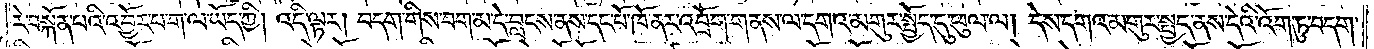རེ་བསྐོན་པའི་འབྱོར་པ་ག་ལ་ཡོད་ཀྱི། འདི་ལྟར། བདག་གིས་བག་མ་དེ་བླངས་ནས་དང་པོ་ཁོ་ནར་འབྲོག་གནས་ལ་དགའ་མགུར་སྤྱོད་དུ་ཕུལ་ལ། དེས་དགའ་མགུར་སྤྱད་ནས་དེའི་འོག་ཏུ་བདག་
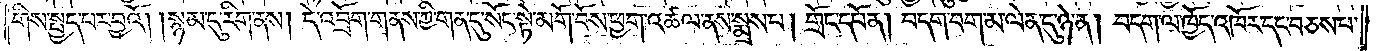གིས་སྤྱད་པར་བྱའོ། །སྙམ་དུ་རིག་ནས། དེ་འབྲོག་གནས་ཀྱི་གན་དུ་སོང་སྟེ་མགོ་བོས་ཕྱག་འཚལ་ནས་སྨྲས་པ། གྲོང་དཔོན། བདག་བག་མ་ལེན་དུ་ཉེ་ན། བདག་ལ་ཁྱོད་འཁོར་དང་བཅས་པ་
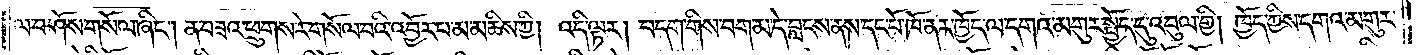ལ་བཤོས་གསོལ་ཞིང༌། ན་བཟའ་ཕྲུགས་རེ་གསོལ་བའི་འབྱོར་པ་མ་མཆིས་ཀྱི། འདི་ལྟར། བདག་གིས་བག་མ་དེ་བླངས་ནས་དང་པོ་ཁོ་ནར་ཁྱོད་ལ་དགའ་མགུར་སྤྱོད་དུ་འབུལ་གྱི། ཁྱོད་ཀྱིས་དགའ་མགུར་
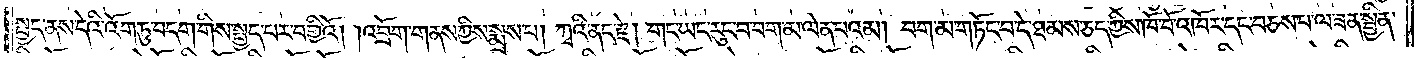སྤྱད་ནས་དེའི་འོག་ཏུ་བདག་གིས་སྤྱད་པར་བགྱིའོ། །འབྲོག་གནས་ཀྱིས་སྨྲས་པ། ཀྭའི་ནང་རྗེ། གང་ཡང་རུང་བ་བག་མ་ལེན་པའམ། བག་མ་གཏོང་བ་དེ་ཐམས་ཅད་ཀྱིས་ཁོ་བོ་འཁོར་དང་བཅས་པ་ལ་ཟན་སྦྱིན་
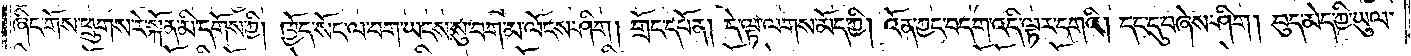ཞིང་གོས་ཕྲུགས་རེ་སྐོན་མི་དགོས་ཀྱི། ཁྱོད་སོང་ལ་བག་ཡངས་སུ་བག་མ་ལོངས་ཤིག། གྲོང་དཔོན། དེ་ལྟ་ལགས་མོད་ཀྱི། འོན་ཀྱང་བདག་འདི་ལྟར་དགའི། དང་དུ་བཞེས་ཤིག །བུད་མེད་ཀྱི་ཡུལ་
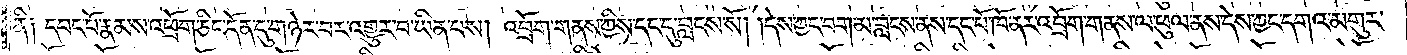ནི༑ དབང་པོ་རྣམས་འཕྲོག་ཅིང་དོན་དུ་གཉེར་བར་འགྱུར་བ་ཡིན་པས། འབྲོག་གནས་ཀྱིས་དང་དུ་བླངས་སོ། །དེས་ཀྱང་བག་མ་བླངས་ནས་དང་པོ་ཁོ་ནར་འབྲོག་གནས་ལ་ཕུལ་ནས་དེས་ཀྱང་དགའ་མགུར་
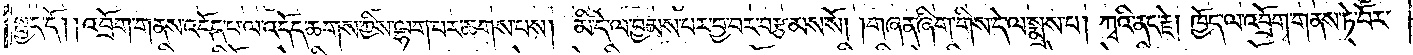སྤྱད་དོ། །འབྲོག་གནས་འདོད་པ་ལ་འདོད་ཆགས་ཀྱིས་ལྷག་པར་ཆགས་པས། མི་དེ་ལ་བྱམས་པར་བྱ་བར་བརྩམས་སོ། །གཞན་ཞིག་གིས་དེ་ལ་སྨྲས་པ། ཀྭའི་ནང་རྗེ། ཁྱོད་ལ་འབྲོག་གནས་ཏེ་བོར་
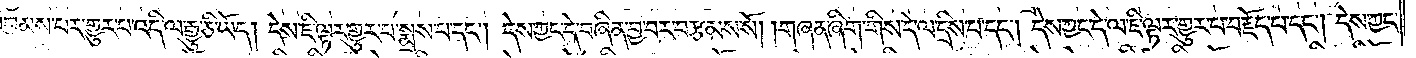བྱམས་པར་གྱུར་པ་འདི་ལ་རྒྱུ་ཅི་ཡོད། དེས་ཇི་ལྟར་གྱུར་པ་སྨྲས་པ་དང༌། དེས་ཀྱང་དེ་བཞིན་བྱ་བར་བརྩམས་སོ། །གཞན་ཞིག་གིས་དེ་ལ་དྲིས་པ་དང༌། དེས་ཀྱང་དེ་ལ་ཇི་ལྟར་གྱུར་པ་བརྗོད་པ་དང༌། དེས་ཀྱང་
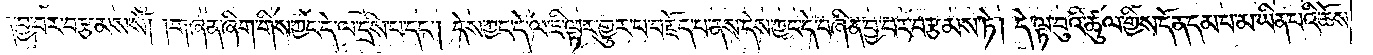དེ་བཞིན་བྱ་བར་བརྩམས་སོ། །གཞན་ཞིག་གིས་ཀྱང་དེ་ལ་དྲིས་པ་དང༌། དེས་ཀྱང་དེ་ལ་ཇི་ལྟར་གྱུར་པ་བརྗོད་པ་ནས་དེས་ཀྱང་དེ་བཞིན་བྱ་བར་བརྩམས་ཏེ། དེ་ལྟ་བུའི་ཚུལ་གྱིས་དོན་དམ་པ་མ་ཡིན་པའི་ཆོས་
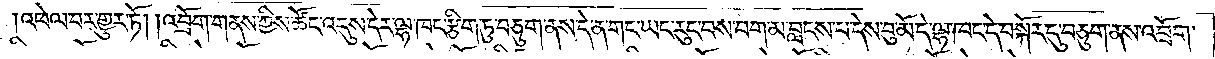འཕེལ་བར་གྱུར་ཏོ། །འབྲོག་གནས་ཀྱིས་ཚོང་འདུས་དེར་ལྷ་ཁང་རྩིག་ཏུ་བཅུག་ནས་དེ་ན་གང་ཡང་རུང་བས་བག་མ་བླངས་པ་དེས་བུ་མོ་དེ་ལྷ་ཁང་དེ་བསྐོར་དུ་བཅུག་ནས་འབྲོག་
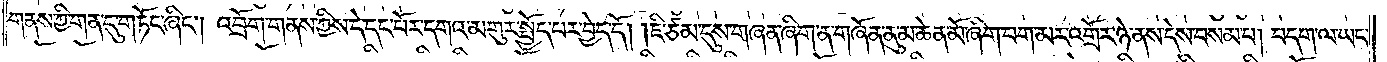གནས་ཀྱི་གན་དུ་གཏོང་ཞིང༌། འབྲོག་གནས་ཀྱིས་དེ་དང་པོར་དགའ་མགུར་སྤྱོད་པར་བྱེད་དོ། །ཇི་ཙམ་དུས་གཞན་ཞིག་ན་གཞོན་ནུ་མ་ཆེན་པོ་ཞིག་བག་མར་འགྲོར་ཉེ་ནས་དེས་བསམ་པ། བདག་ལ་ཡང་
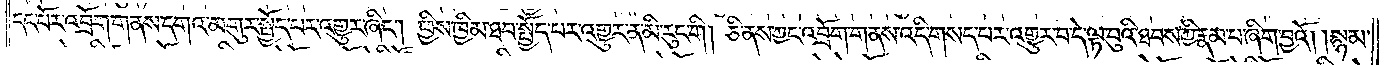དང་པོར་འབྲོག་གནས་དགའ་མགུར་སྤྱོད་པར་འགྱུར་ཞིང༌། ཕྱིས་ཁྱིམ་ཐབ་སྤྱོད་པར་འགྱུར་ན་མི་རུང་གི །ཅི་ནས་ཀྱང་འབྲོག་གནས་འདི་གསད་པར་འགྱུར་བ་དེ་ལྟ་བུའི་ཐབས་ཀྱི་རྣམ་པ་ཞིག་བྱའོ། །སྙམ་
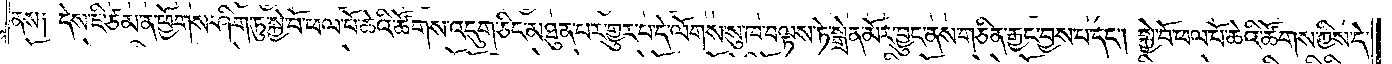ནས༑ དེས་ཇི་ཙམ་ན་ཕྱོགས་ཤིག་ཏུ་སྐྱེ་བོ་ཕལ་པོ་ཆེའི་ཚོགས་འདུག་ཅིང་མཐུན་པར་གྱུར་པ་དེ་ལོགས་སུ་ཁ་བལྟས་ཏེ་སྒྲོན་མོར་བྱུང་ནས་གཅིན་རྒྱང་བྱས་པ་དང༌། སྐྱེ་བོ་ཕལ་པོ་ཆེའི་ཚོགས་ཀྱིས་དེ་
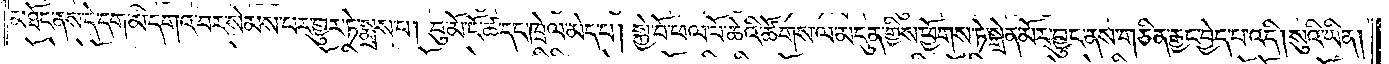མཐོང་ནས་དེ་དག་མི་དགའ་བར་སེམས་པར་གྱུར་ཏེ་སྨྲས་པ། བུ་མོ་ངོ་ཚ་དང་ཁྲེལ་མེད་པ། སྐྱེ་བོ་ཕལ་པོ་ཆེའི་ཚོགས་ལ་མདུན་གྱིས་ཕྱོགས་ཏེ་སྒྲོན་མོར་བྱུང་ནས་གཅིག་རྒྱང་བྱེད་པ་འདི། སུའི་ཡིན།
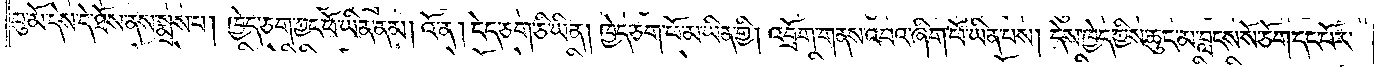བུ་མོ་དེས་དེ་ཐོས་ནས་སྨྲས་པ། ཁྱེད་ཅག་ཀྱང་ཕོ་ཡིན་ནམ། འོ་ན། ངེད་ཅག་ཅི་ཡིན། ཁྱེད་ཅག་ཕོ་མ་ཡིན་གྱི། འབྲོག་གནས་འབའ་ཞིག་ཕོ་ཡིན་པས། དེས་ཁྱེད་ཀྱིས་ཆུང་མ་བླངས་སོ་ཅོག་དང་པོར་
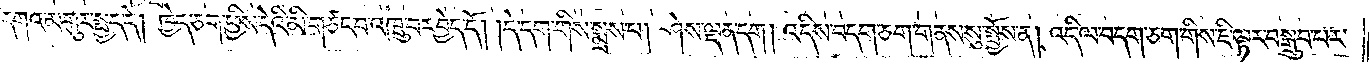དགའ་མགུར་སྤྱད་དེ། ཁྱེད་ཅག་ཕྱིས་དེའི་མི་གཙང་བ་འཁྲུ་བར་བྱེད་དོ། །དེ་དག་གིས་སྨྲས་པ། ཤེས་ལྡན་དག །འདིས་བདག་ཅག་གནས་སུ་སྤྱོད་ན། འདི་ལ་བདག་ཅག་གིས་ཇི་ལྟར་བསྒྲུབ་པར་
